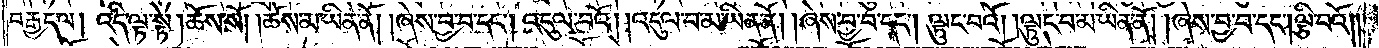བརྒྱད་ལ། འདི་ལྟ་སྟེ་།ཆོས་སོ། །ཆོས་མ་ཡིན་ནོ། །ཞེས་བྱ་བ་དང༌། འདུལ་བའོ། །འདུལ་བ་མ་ཡིན་ནོ། །ཞེས་བྱ་བ་དང༌། ལྟུང་བའོ། །ལྟུང་བ་མ་ཡིན་ནོ། །ཞེས་བྱ་བ་དང༌། ལྕི་བའོ༎
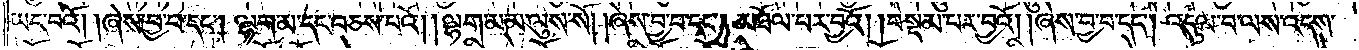ཡང་བའོ། །ཞེས་བྱ་བ་དང༌། ལྷག་མ་དང་བཅས་པའོ། །ལྷག་མ་མ་ལུས་སོ། །ཞེས་བྱ་བ་དང༌། མཐོལ་པར་བྱའོ། །བསྡམ་པར་བྱའོ། །ཞེས་བྱ་བ་དང༌། འདུལ་བ་ལས་འདས་
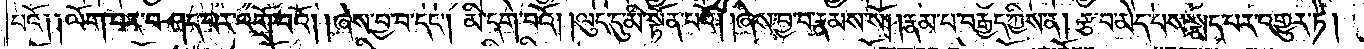པའོ༑ ༑ལོག་པར་བཤད་པར་འགྲོ་བའོ། །ཞེས་བྱ་བ་དང༌། མི་དགེ་བའོ། །ལུང་དུ་མི་སྟོན་པའོ། །ཞེས་བྱ་བ་རྣམས་སོ། །རྣམ་པ་བརྒྱད་ཀྱིས་ན། རྩ་བ་མེད་པས་སྨད་པར་འགྱུར་ཏེ།
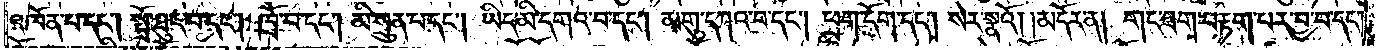འཁོན་པ་དང༌། སྤྲོ་ཐུང་བ་དང༌། ཁྲོ་བ་དང༌། མི་སྲུན་པ་དང༌། ཡིད་མི་དགའ་བ་དང༌། མགུ་དཀའ་བ་དང༌། ཕྲག་དོག་དང༌། སེར་སྣའོ། །མདོར་ན། གང་ཟག་བརྟག་པར་བྱ་བ་དང༌།
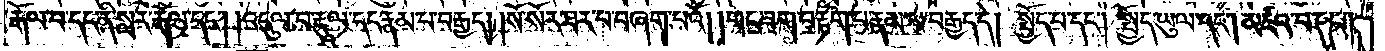རྒོལ་བ་དང་ནི་སླར་རྒོལ་དང༌། །འདུལ་བ་རྡུལ་དང་རྣམ་པ་བརྒྱད། །སོ་སོར་ཐར་པ་བཞག་པའོ། །གང་ཟག་བརྟག་པ་རྣམ་པ་བརྒྱད་དེ། སྤྱོད་པ་དང༌། སྤྱོད་ཡུལ་དང༌། མཛའ་བ་དང༌།
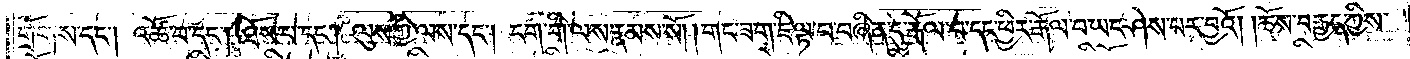གྲོགས་དང༌། འཚོ་བ་དང༌། ཐོས་པ་དང༌། ལུས་ཀྱི་ལས་དང༌། ངག་གི་ལས་རྣམས་སོ། །གང་ཟག་ཇི་ལྟ་བ་བཞིན་དུ་རྒོལ་བ་དང་ཕྱིར་རྒོལ་བ་ཡང་ཤེས་པར་བྱའོ། །ཆོས་བརྒྱད་ཀྱིས་
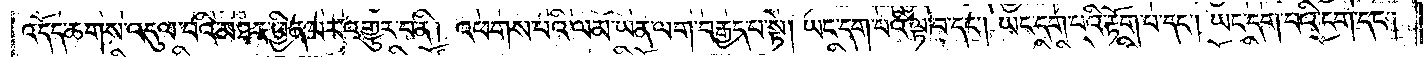འདོད་ཆགས་འདུལ་བའི་མཐར་ཕྱིན་པར་འགྱུར་བ་ནི། འཕགས་པའི་ལམ་ཡན་ལག་བརྒྱད་པ་སྟེ། ཡང་དག་པའི་ལྟ་བ་དང༌། ཡང་དག་པའི་རྟོག་པ་དང༌། ཡང་དག་པའི་ངག་དང༌།
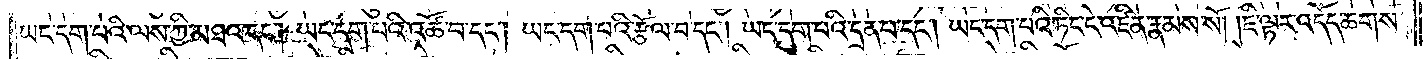ཡང་དག་པའི་ལས་ཀྱི་མཐའ་དང༌། ཡང་དག་པའི་འཚོ་བ་དང༌། ཡང་དག་པའི་རྩོལ་བ་དང༌། ཡང་དག་པའི་དྲན་པ་དང༌། ཡང་དག་པའི་ཏིང་ངེ་འཛིན་རྣམས་སོ། །ཇི་ལྟར་འདོད་ཆགས་
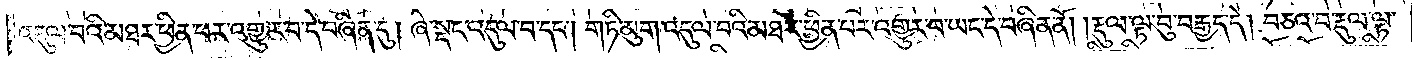འདུལ་བའི་མཐར་ཕྱིན་པར་འགྱུར་བ་དེ་བཞིན་དུ། ཞེ་སྡང་འདུལ་བ་དང༌། གཏི་མུག་འདུལ་བའི་མཐར་ཕྱིན་པར་འགྱུར་བ་ཡང་དེ་བཞིན་ནོ། །རྡུལ་ལྟ་བུ་བརྒྱད་དེ། བཅའ་བ་རྡུལ་ལྟ་
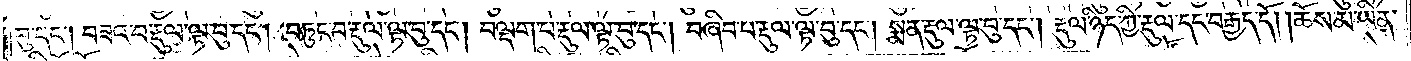བུ་དང༌། བཟའ་བ་རྡུལ་ལྟ་བུ་དང༌། བཏུང་བ་རྡུལ་ལྟ་བུ་དང༌། བལྡག་པ་རྡུལ་ལྟ་བུ་དང༌། བཞིབ་པ་རྡུལ་ལྟ་བུ་དང༌། སྨན་རྡུལ་ལྟ་བུ་དང༌། རྡུལ་ཉིད་ཀྱི་རྡུལ་དང་བརྒྱད་དོ། །ཆོས་མ་ཡིན་
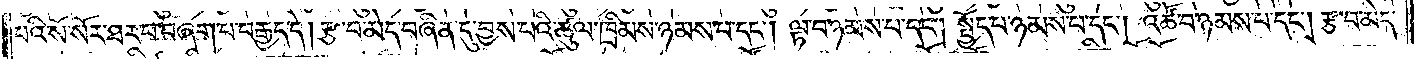པའི་སོ་སོར་ཐར་པ་བཞག་པ་བརྒྱད་དེ། རྩ་བ་མེད་བཞིན་དུ་བྱས་པའི་ཚུལ་ཁྲིམས་ཉམས་པ་དང༌། ལྟ་བ་ཉམས་པ་དང༌། སྤྱོད་པ་ཉམས་པ་དང༌། འཚོ་བ་ཉམས་པ་དང༌། རྩ་བ་མེད་
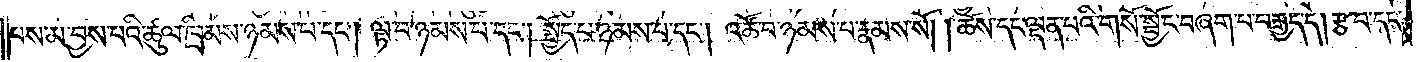པས་མ་བྱས་པའི་ཚུལ་ཁྲིམས་ཉམས་པ་དང༌། ལྟ་བ་ཉམས་པ་དང༌། སྤྱོད་པ་ཉམས་པ་དང༌། འཚོ་བ་ཉམས་པ་རྣམས་སོ། །ཆོས་དང་ལྡན་པའི་གསོ་སྦྱོང་བཞག་པ་བརྒྱད་དེ། རྩ་བ་དང་
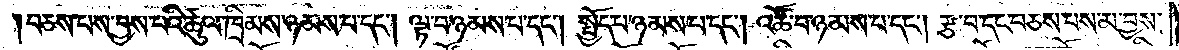བཅས་པས་བྱས་པའི་ཚུལ་ཁྲིམས་ཉམས་པ་དང༌། ལྟ་བ་ཉམས་པ་དང༌། སྤྱོད་པ་ཉམས་པ་དང༌། འཚོ་བ་ཉམས་པ་དང༌། རྩ་བ་དང་བཅས་པས་མ་བྱས་
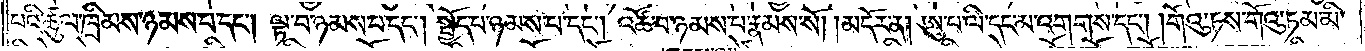པའི་ཚུལ་ཁྲིམས་ཉམས་པ་དང༌། ལྟ་བ་ཉམས་པ་དང༌། སྤྱོད་པ་ཉམས་པ་དང༌། འཚོ་བ་ཉམས་པ་རྣམས་སོ། །མདོར་ན། ཨུ་པ་ལི་དང་འགགས་དང༌། །གོའུ་ཏས་གོའུ་ཏམ་མི་
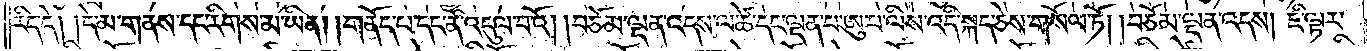རིད་དེ། །དེ་མ་གནས་དང་རིགས་མ་ཡིན། །གནོད་པ་དང་ནི་འདུལ་བའོ། །བཅོམ་ལྡན་འདས་ལ་ཚེ་དང་ལྡན་པ་ཨུ་པ་ལིས་འདི་སྐད་ཅེས་གསོལ་ཏོ། །བཅོམ་ལྡན་འདས། ཇི་ལྟར་
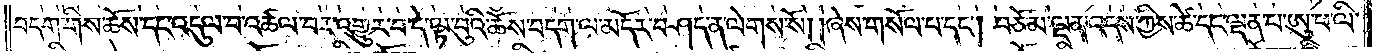བདག་གིས་ཆོས་དང་འདུལ་བ་འཚལ་བར་འགྱུར་བ་དེ་ལྟ་བུའི་ཆོས་བདག་ལ་མདོར་བཤད་ན་ལེགས་སོ། །ཞེས་གསོལ་པ་དང༌། བཅོམ་ལྡན་འདས་ཀྱིས་ཚེ་དང་ལྡན་པ་ཨུ་པ་ལི་
